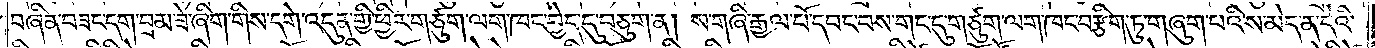བཞིན་བཟང་དག་བྲམ་ཟེ་ཞིག་གིས་དགེ་འདུན་གྱི་ཕྱིར་གཙུག་ལག་ཁང་བྱེད་དུ་བཅུག་ན། ས་གཞི་རྒྱལ་པོ་དབང་བས་གང་དུ་གཙུག་ལག་ཁང་བརྩིག་ཏུ་གཞུག་པའི་ས་མེད་ན་དེའི་
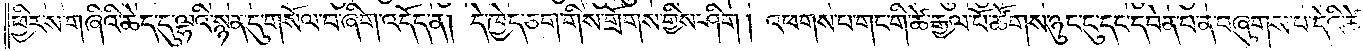ཕྱིར་ས་གཞིའི་ཆེད་དུ་ལྷའི་སྙན་དུ་གསོལ་བ་ཞིག་འདོད་ན། དེ་ཁྱེད་ཅག་གིས་གྲོགས་གྱིས་ཤིག །འཕགས་པ་གང་གི་ཚེ་རྒྱལ་པོ་ཚོགས་ཉུང་ངུ་དང་དབེན་པ་ན་བཞུགས་པ་དེའི་ཚེ་
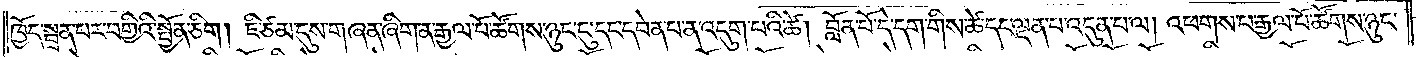ཁྱོད་སྦྲན་པར་བགྱིའི་སྤྱོན་ཅིག །ཇི་ཙམ་དུས་གཞན་ཞིག་ན་རྒྱལ་པོ་ཚོགས་ཉུང་ངུ་དང་དབེན་པ་ན་འདུག་པའི་ཚེ། བློན་པོ་དེ་དག་གིས་ཚེ་དང་ལྡན་པ་འདུན་པ་ལ། འཕགས་པ་རྒྱལ་པོ་ཚོགས་ཉུང་
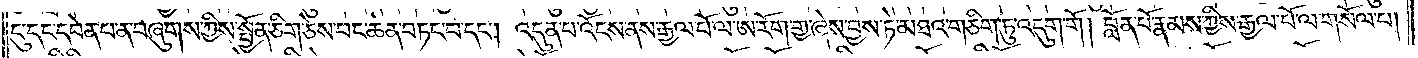ངུ་དང་དབེན་པ་ན་བཞུགས་ཀྱིས་སྤྱོན་ཅིག་ཅེས་བང་ཆེན་བཏང་བ་དང༌། འདུན་པ་འོངས་ནས་རྒྱལ་པོ་ལ་ཨ་རོག་གྱ་ཞེས་བྱས་ཏེ་མཐའ་གཅིག་ཏུ་འདུག་གོ །བློན་པོ་རྣམས་ཀྱིས་རྒྱལ་པོ་ལ་གསོལ་པ།
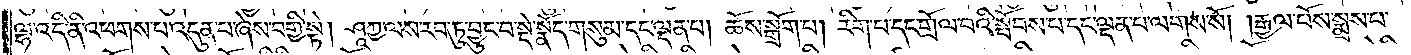ལྷ་འདི་ནི་འཕགས་པ་འདུན་པ་ཞེས་བགྱི་སྟེ། ཤཱཀྱ་ལས་རབ་ཏུ་བྱུང་བ་སྡེ་སྣོད་གསུམ་དང་ལྡན་པ། ཆོས་སྒྲོག་པ། རིག་པ་དང་གྲོལ་བའི་སྤོབས་པ་དང་ལྡན་པ་ལགས་སོ། །རྒྱལ་པོས་སྨྲས་པ་
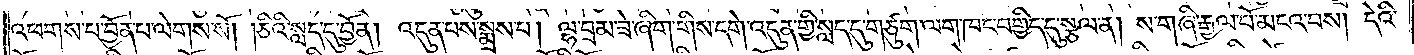འཕགས་པ་བྱོན་པ་ལེགས་སོ། །ཅིའི་སླད་དུ་བྱོན། འདུན་པས་སྨྲས་པ། ལྷ་བྲམ་ཟེ་ཞིག་གིས་དགེ་འདུན་གྱི་སླད་དུ་གཙུག་ལག་ཁང་བགྱིད་དུ་སྩལ་ན། ས་གཞི་རྒྱལ་པོ་མངའ་བས། དེའི་
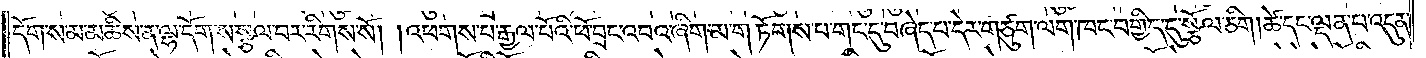དོག་ས་མ་མཆིས་ན་ལྷ་དོག་ས་སྩལ་བར་རིགས་སོ། །འཕགས་པ་རྒྱལ་པོའི་ཕོ་བྲང་འབའ་ཞིག་མ་གཏོགས་པ་གང་དུ་བཞེད་པ་དེར་གཙུག་ལག་ཁང་བགྱིད་དུ་སྩོལ་ཅིག །ཚེ་དང་ལྡན་པ་འདུན་
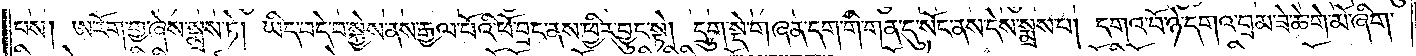པས། ཨ་རོག་གྱ་ཞེས་སྨྲས་ཏེ། ཡིད་བདེ་བ་སྐྱེས་ནས་རྒྱལ་པོའི་ཕོ་བྲང་ནས་ཕྱིར་བྱུང་སྟེ། དྲུག་སྡེ་གཞན་དག་གི་གན་དུ་སོང་ནས་དེས་སྨྲས་པ། དགའ་བོ་ཉེ་དགའ་བྲམ་ཟེ་ཆེ་གེ་མོ་ཞིག་
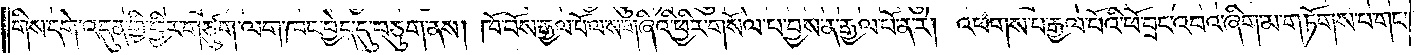གིས་དགེ་འདུན་གྱི་ཕྱིར་གཙུག་ལག་ཁང་བྱེད་དུ་བཅུག་ནས། ཁོ་བོས་རྒྱལ་པོ་ལ་ས་གཞིའི་ཕྱིར་གསོལ་བ་བྱས་ན་རྒྱལ་པོ་ན་རེ། འཕགས་པ་རྒྱལ་པོའི་ཕོ་བྲང་འབའ་ཞིག་མ་གཏོགས་པ་གང་
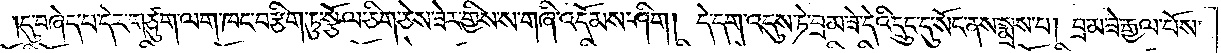དུ་བཞེད་པ་དེར་གཙུག་ལག་ཁང་བརྩིག་ཏུ་སྩོལ་ཅིག་ཅེས་ཟེར་གྱིས་ས་གཞི་འདོམས་ཤིག །དེ་དག་འདུས་ཏེ་བྲམ་ཟེ་དེའི་དྲུང་དུ་སོང་ནས་སྨྲས་པ། བྲམ་ཟེ་རྒྱལ་པོས་
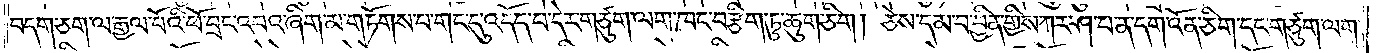བདག་ཅག་ལ་རྒྱལ་པོའི་ཕོ་བྲང་འབའ་ཞིག་མ་གཏོགས་པ་གང་དུ་འདོད་པ་དེར་གཙུག་ལག་ཁང་བརྩིག་ཏུ་ཆུག་ཅིག །ཅེས་དམ་པ་བྱིན་གྱིས་ཀར་ཤ་པ་ན་དག་འོན་ཅིག་དང་གཙུག་ལག་
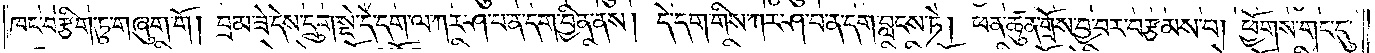ཁང་བརྩིག་ཏུ་གཞུག་གོ །བྲམ་ཟེ་དེས་དྲུག་སྡེ་དེ་དག་ལ་ཀར་ཤ་པ་ན་དག་བྱིན་ནས། དེ་དག་གིས་ཀར་ཤ་པ་ན་དག་བླངས་ཏེ། ཕན་ཚུན་གྲོས་བྱ་བར་བརྩམས་པ། ཕྱོགས་གང་དུ་
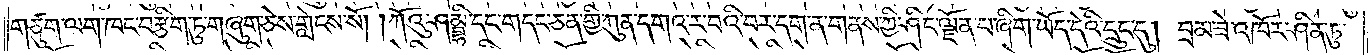གཙུག་ལག་ཁང་བརྩིག་ཏུ་གཞུག་ཅེས་གླེངས་སོ། །ཀོའུ་ཤམྦྷི་དང་གདང་ཅན་གྱི་ཀུན་དགའ་ར་བའི་བར་དག་ན་གནས་ཀྱི་ཤིང་ལྗོན་པ་ཞིག་ཡོད་དེའི་དྲུང་དུ། བྲམ་ཟེ་འཁོར་ཤིན་ཏུ་
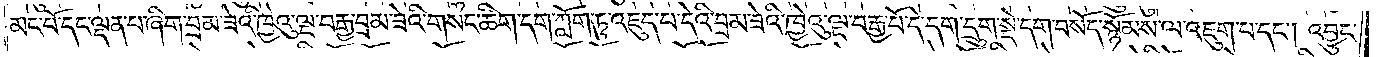མང་པོ་དང་ལྡན་པ་ཞིག་བྲམ་ཟེའི་ཁྱེའུ་ལྔ་བརྒྱ་བྲམ་ཟེའི་གསང་ཚིག་དག་ཀློག་ཏུ་འཇུད་པ་དེའི་བྲམ་ཟེའི་ཁྱེའུ་ལྔ་བརྒྱ་པོ་དེ་དག་དྲུག་སྡེ་དག་བསོད་སྙོམས་ལ་འཇུག་པ་དང༌། འབྱུང་
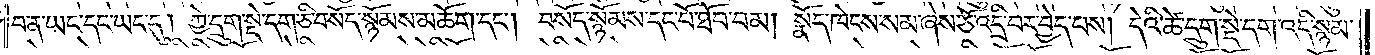བ་ན་ཡང་དང་ཡང་དུ། ཀྱེ་དྲུག་སྡེ་དག་ཅི་བསོད་སྙོམས་མཆོག་དང༌། བསོད་སྙོམས་དང་པོ་ཐོབ་བམ། སྣོད་ཁེངས་སམ་ཞེས་ཅོ་འདྲི་བར་བྱེད་པས། དེའི་ཚེ་དྲུག་སྡེ་དག་འདི་སྙམ་
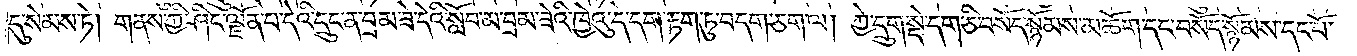དུ་སེམས་ཏེ། གནས་ཀྱི་ཤིང་ལྗོན་པ་དེའི་དྲུང་ན་བྲམ་ཟེ་དེའི་སློབ་མ་བྲམ་ཟེའི་ཁྱེའུ་དེ་དག་རྟག་ཏུ་བདག་ཅག་ལ། ཀྱེ་དྲུག་སྡེ་དག་ཅི་བསོད་སྙོམས་མཆོག་དང་བསོད་སྙོམས་དང་པོ་
